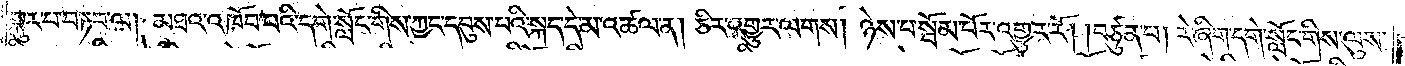སྐུར་པ་བཏབ་ལ། མཐའ་འཁོབ་པའི་དགེ་སློང་གིས་ཀྱང་དབུས་པའི་སྐད་དེ་མ་འཚལ་ན། ཅིར་འགྱུར་ལགས། ཉེས་པ་སྦོམ་པོར་འགྱུར་རོ། །བཙུན་པ། རེ་ཞིག་དགེ་སློང་གིས་ལུས་
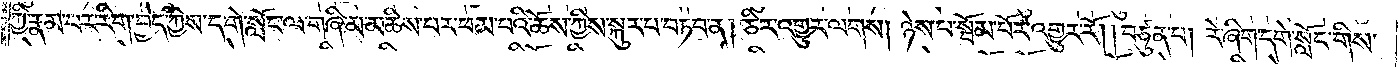ཀྱི་རྣམ་པར་རིག་བྱེད་ཀྱིས་དགེ་སློང་ལ་གཞི་མ་མཆིས་པར་ཕམ་པའི་ཆོས་ཀྱིས་སྐུར་པ་བཏབ་ན། ཅིར་འགྱུར་ལགས། ཉེས་པ་སྦོམ་པོར་འགྱུར་རོ། །བཙུན་པ། རེ་ཞིག་དགེ་སློང་གིས་
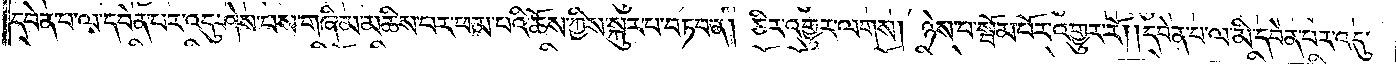དབེན་པ་ལ་དབེན་པར་འདུ་ཤེས་པས་གཞི་མ་མཆིས་པར་ཕམ་པའི་ཆོས་ཀྱིས་སྐུར་པ་བཏབ་ན། ཅིར་འགྱུར་ལགས། ཉེས་པ་སྦོམ་པོར་འགྱུར་རོ། །དབེན་པ་ལ་མི་དབེན་པར་འདུ་
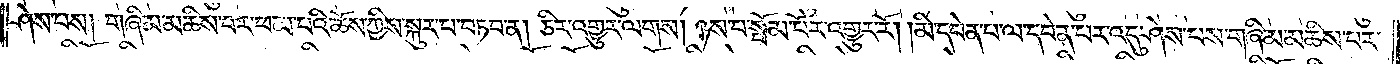ཤེས་པས། གཞི་མ་མཆིས་པར་ཕམ་པའི་ཆོས་ཀྱིས་སྐུར་པ་བཏབ་ན། ཅིར་འགྱུར་ལགས། ཉས་པ་སྦོམ་པོར་འགྱུར་རོ། །མི་དབེན་པ་ལ་དབེན་པར་འདུ་ཤེས་པས་གཞི་མ་མཆིས་པར་
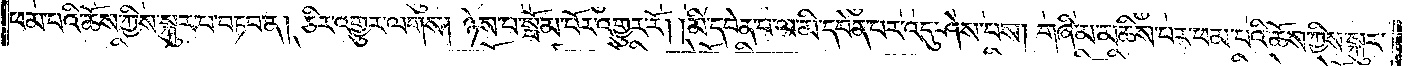ཕམ་པའི་ཆོས་ཀྱིས་སྐུར་པ་བཏབ་ན། ཅིར་འགྱུར་ལགས། ཉེས་པ་སྦོམ་པོར་འགྱུར་རོ། །མི་དབེན་པ་ལ་མི་དབེན་པར་འདུ་ཤེས་པས། གཞི་མ་མཆིས་པར་ཕམ་པའི་ཆོས་ཀྱིས་སྐུར་
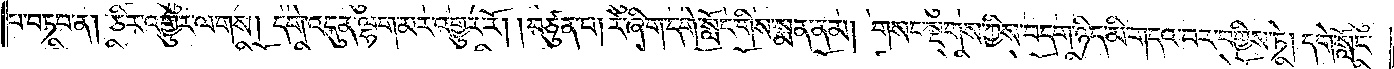པ་བཏབ་ན། ཅིར་འགྱུར་ལགས། དགེ་འདུན་ལྷག་མར་འགྱུར་རོ། །བཙུན་པ། རེ་ཞིག་དགེ་སློང་གིས་སྨན་ནམ། གསང་སྔགས་ཀྱིས་བདག་ཉིད་མི་གདའ་བར་བགྱིས་ཏེ། དགེ་སློང་
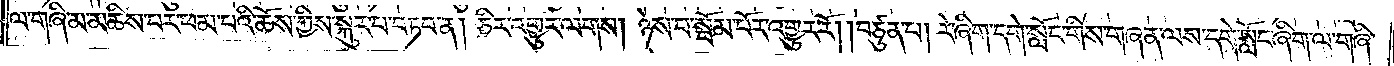ལ་གཞི་མ་མཆིས་པར་ཕམ་པའི་ཆོས་ཀྱིས་སྐུར་པ་བཏབ་ན། ཅིར་འགྱུར་ལགས། ཉེས་པ་སྦོམ་པོར་འགྱུར་རོ། །བཙུན་པ། རེ་ཞིག་དགེ་སློང་གིས་གཞན་ལས་དགེ་སློང་ཞིག་ལ་གཞི་
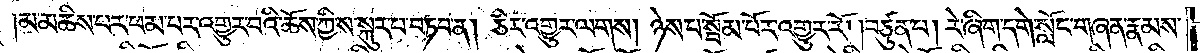།མ་མཆིས་པར་ཕམ་པར་འགྱུར་བའི་ཆོས་ཀྱིས་སྐུར་པ་བཏབ་ན། ཅིར་འགྱུར་ལགས། ཉེས་པ་སྦོམ་པོར་འགྱུར་རོ། །བཙུན་པ། རེ་ཞིག་དགེ་སློང་གཞན་རྣམས་
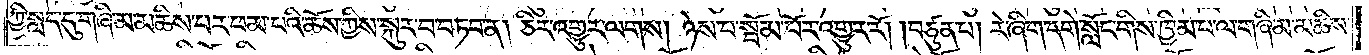ཀྱི་སླད་དུ་གཞི་མ་མཆིས་པར་ཕམ་པའི་ཆོས་ཀྱིས་སྐུར་བ་བཏབ་ན། ཅིར་འགྱུར་ལགས། ཉེས་པ་སྦོམ་པོར་འགྱུར་རོ། །བཙུན་པ། རེ་ཞིག་དགེ་སློང་གིས་ཁྱིམ་པ་ལ་གཞི་མ་མཆིས་
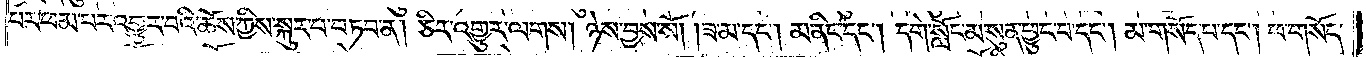པར་ཕམ་པར་འགྱུར་བའི་ཆོས་ཀྱིས་སྐུར་པ་བཏབ་ན། ཅིར་འགྱུར་ལགས། ཉེས་བྱས་སོ། །ཟ་མ་དང༌། མ་ནིང་དང༌། དགེ་སློང་མ་སུན་ཕྱུང་བ་དང༌། མ་གསོད་པ་དང༌། ཕ་གསོད་
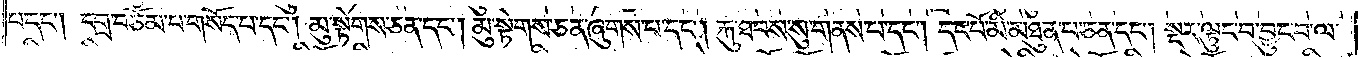པ་དང༌། དགྲ་བཅོམ་པ་གསོད་པ་དང༌། མུ་སྟེགས་ཅན་དང༌། མུ་སྟེགས་ཅན་ཞུགས་པ་དང༌། རྐུ་ཐབས་སུ་གནས་པ་དང༌། དང་པོ་མི་མཐུན་པ་ཅན་དང༌། སྔར་ལྟུང་བ་བྱུང་བ་ལ་
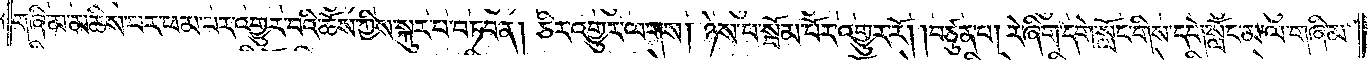གཞི་མ་མཆིས་པར་ཕམ་པར་འགྱུར་བའི་ཆོས་ཀྱིས་སྐུར་པ་བཏབ་ན། ཅིར་འགྱུར་ལགས། ཉེས་པ་སྦོམ་པོར་འགྱུར་རོ། །བཙུན་པ། རེ་ཞིག་དགེ་སློང་གིས་དགེ་སློང་མ་ལ་གཞི་མ་
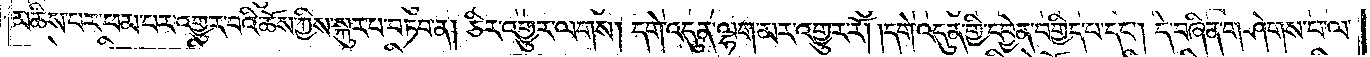མཆིས་པར་ཕམ་པར་འགྱུར་བའི་ཆོས་ཀྱིས་སྐུར་པ་བཏབ་ན། ཅིར་འགྱུར་ལགས། དགེ་འདུན་ལྷག་མར་འགྱུར་རོ། །དགེ་འདུན་གྱི་དབྱེན་བགྱིད་པ་དང༌། དེ་བཞིན་གཤེགས་པ་ལ་
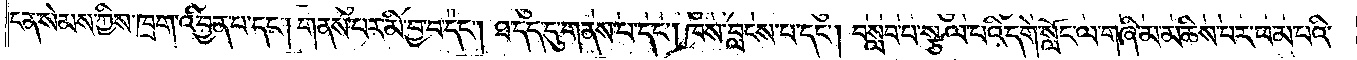ངན་སེམས་ཀྱིས་ཁྲག་འབྱིན་པ་དང༌། གནས་པར་མི་བྱ་བ་དང༌། ཐ་དད་དུ་གནས་པ་དང༌། ཁས་བླངས་པ་དང༌། བསླབ་པ་སྩལ་པའི་དགེ་སློང་ལ་གཞི་མ་མཆིས་པར་ཕམ་པའི་
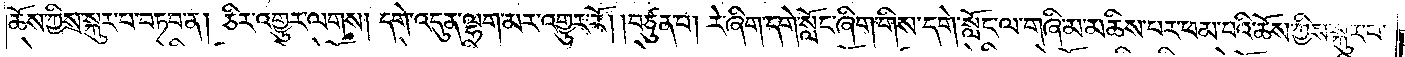ཆོས་ཀྱིས་སྐུར་པ་བཏབ་ན། ཅིར་འགྱུར་ལགས། དགེ་འདུན་ལྷག་མར་འགྱུར་རོ། །བཙུན་པ། རེ་ཞིག་དགེ་སློང་ཞིག་གིས་དགེ་སློང་ལ་གཞི་མ་མཆིས་པར་ཕམ་པའི་ཆོས་ཀྱིས་སྐུར་པ་
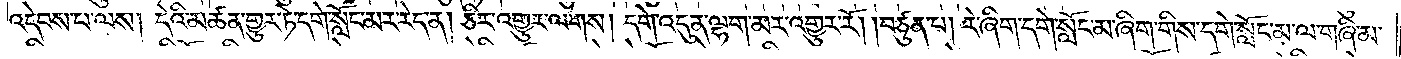འདེབས་པ་ལས། དེའི་མཚན་གྱུར་ཏེ་དགེ་སློང་མར་རེད་ན། ཅིར་འགྱུར་ལགས། དགེ་འདུན་ལྷག་མར་འགྱུར་རོ། །བཙུན་པ། རེ་ཞིག་དགེ་སློང་མ་ཞིག་གིས་དགེ་སློང་མ་ལ་གཞི་མ་
